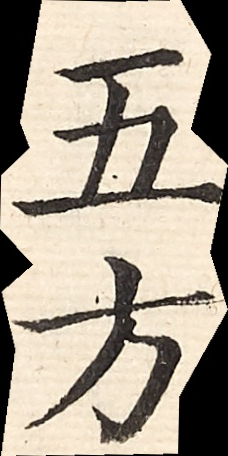五方
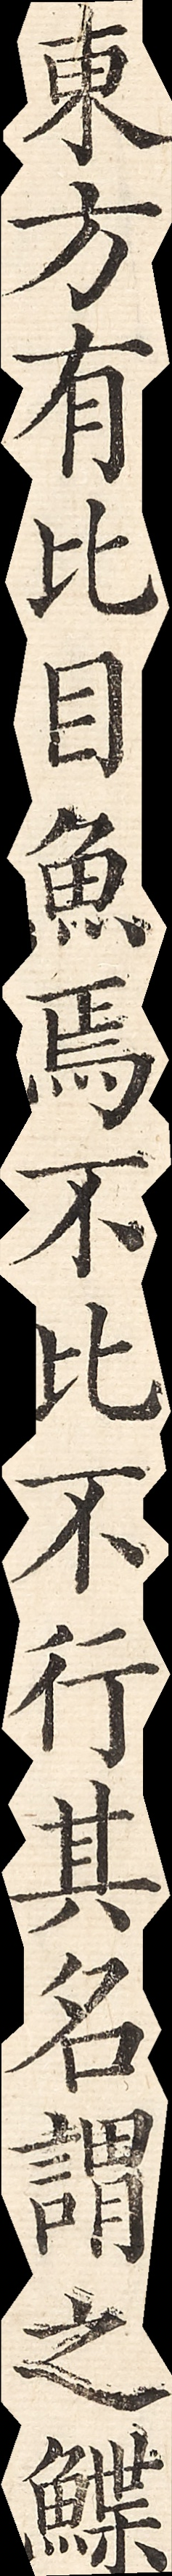東方有比目魚焉不比不行其名謂之鰈
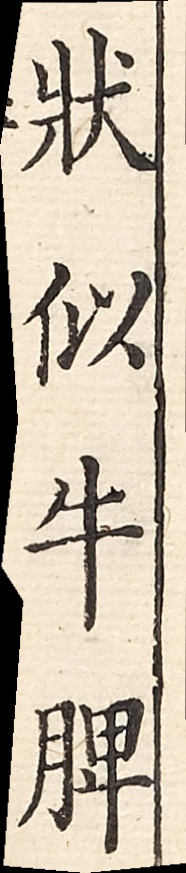狀似牛脾
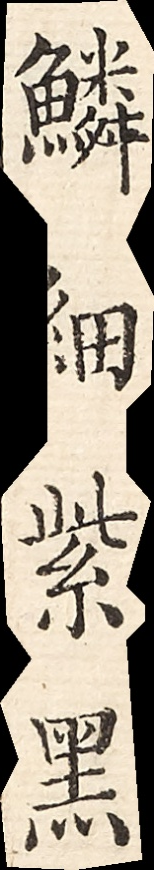鱗細紫黑
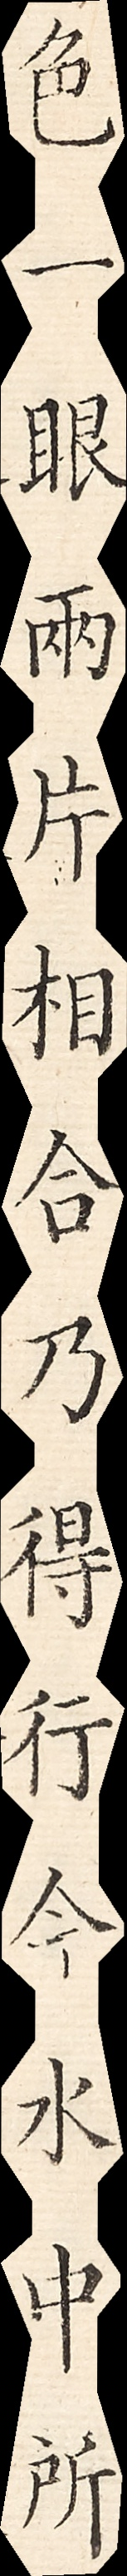色一眼兩片相合乃得行今水中所
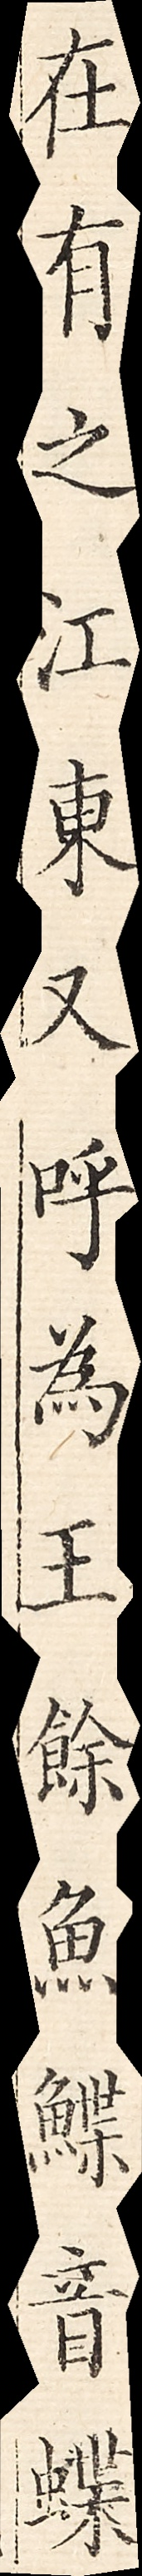在有之江東又呼為王餘魚鰈音蝶
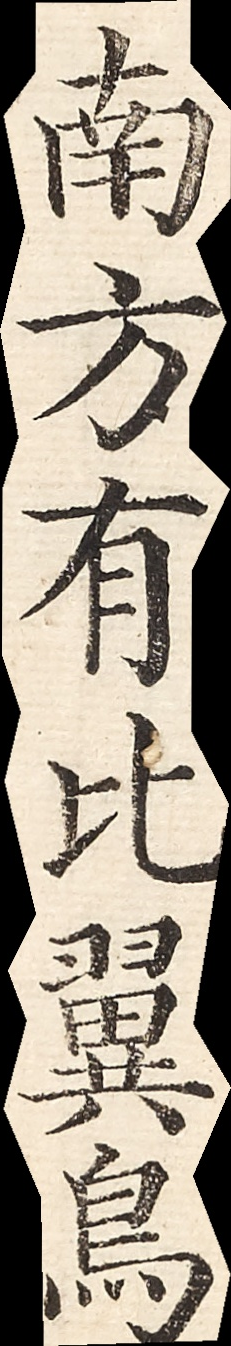南方有比翼鳥
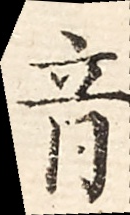音
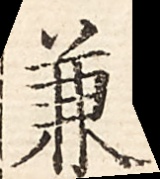兼
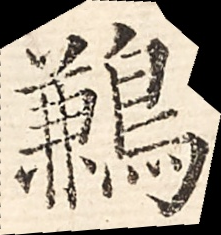鶼
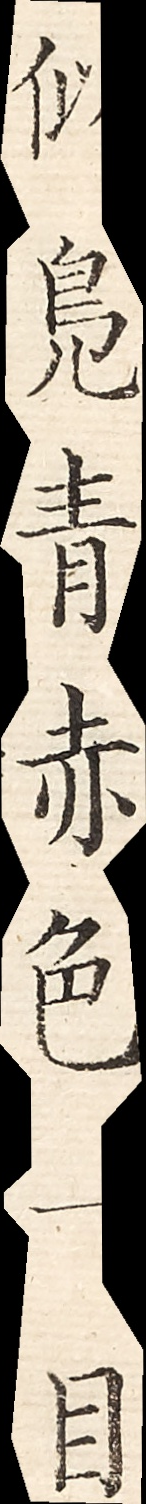似鳧青赤色一目
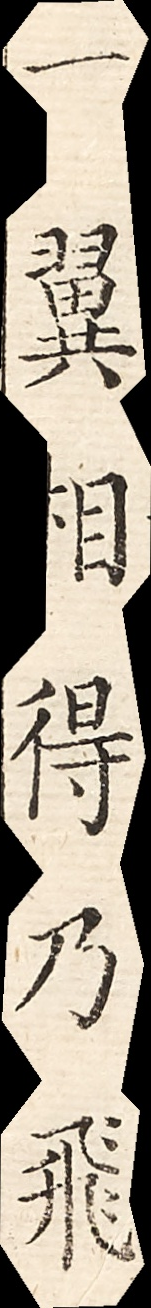一翼相得乃飛
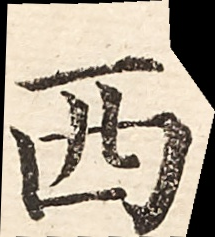西
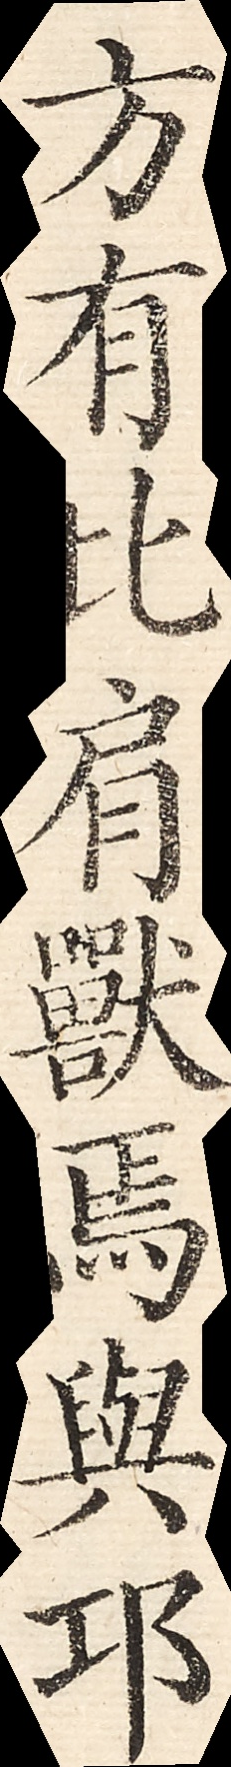方有比肩獸焉與邛
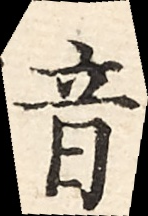音
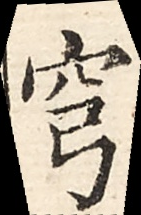穹
